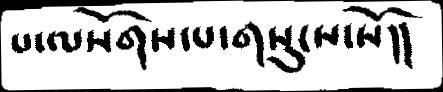པ་ལསོགས་པ་གསུངས་སོ།།
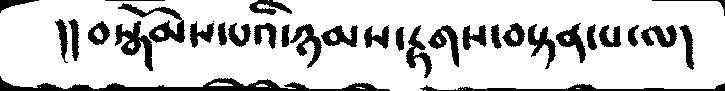།།བསྒོམས་པའི་ཉམས་རྟགས་བསྟན་པ་ལ།
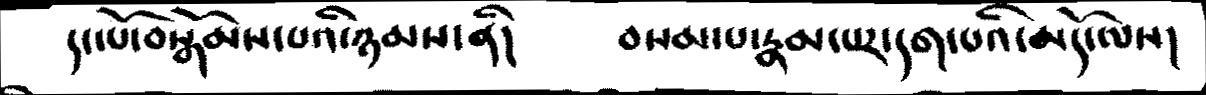དང་པོ་བསྒོམས་པའི་ཉམས་ནི།   བསམ་པ་རྣམ་པར་དག་པའི་མདོ་ལས།
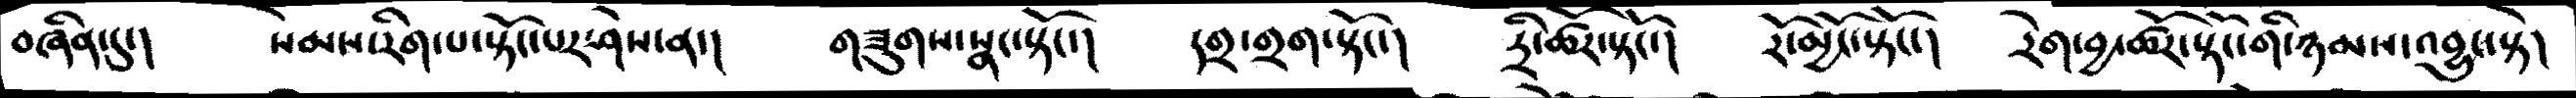བཞིན་དུ་།   སེམས་རིག་པ་སྟོང་པར་ཤེས་ན་།  གཟུགས་སྣང་སྟོང་།  དགྲ་གྲག་སྟོང་།  དྲི་ཚོར་སྟོང་།  རོ་མྱོང་སྟོང་།  རེག་བྱ་ཚོར་སྟོང་གི་ཉམས་འབྱུང་སྟེ།
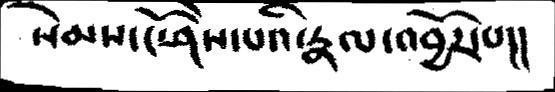སེམས་ངོ་ཤེས་པའི་རྣལ་འབྱོར་པ།།
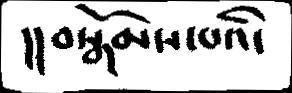།།བསྒོམས་པའི་
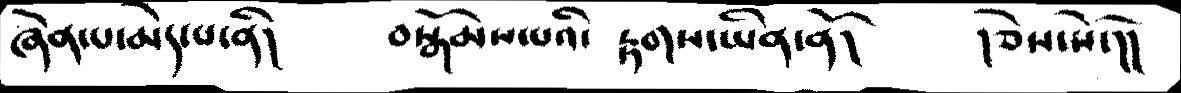ཞེན་པ་མེད་པ་ནི།   བསྒོམ་པའི་  རྟགས་ཡིན་ནོ།  །ཅེས་སོ་།།
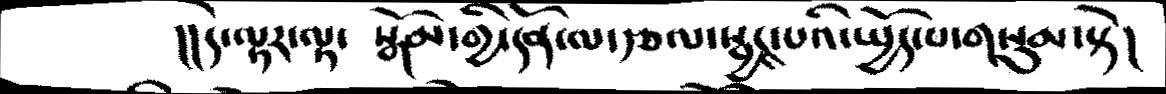།།དེ་ལྟར་ལྟ་  སྒོམ་གྱི་དོན་ལ་རྩལ་སྦྱང་པའི་སྤྱོད་པ་གསུམ་སྟེ།
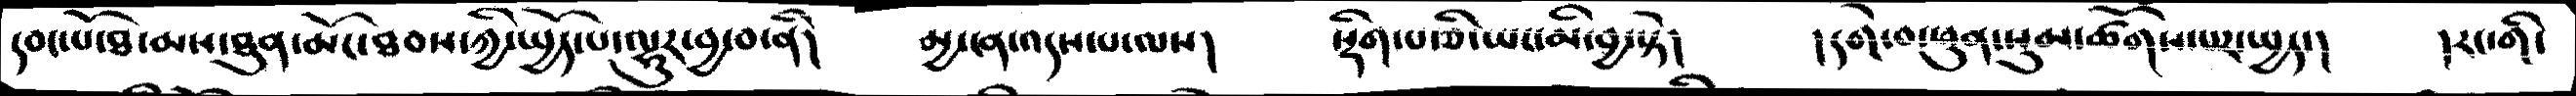དབང་པོ་ཐ་མས་ཐུན་མོང་ཐབས་ཀྱི་སྤྱོད་པ་ལྷུར་བྱ་བ་ནི།  མྱ་ངན་འདས་པ་ལས།  སྡིག་པ་ཅི་ཡང་མི་བྱ་སྟེ།  །དགེ་བ་ཕུན་སུམ་ཚོགས་པར་སྤྱད་།  །རང་གི་
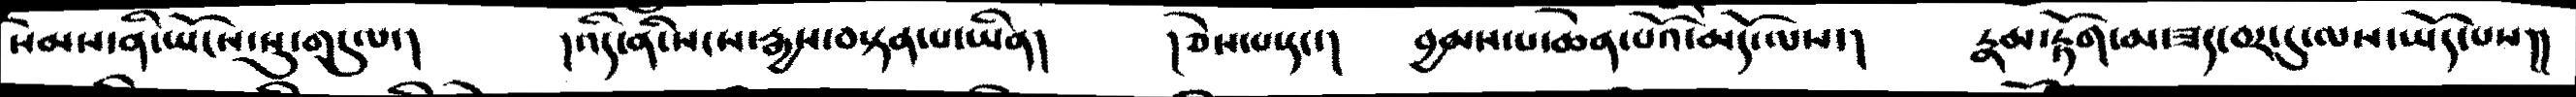སེམས་ནི་ཡོངས་སུ་གདུལ་།  །འདི་ནི་སངས་རྒྱས་བསྟན་པ་ཡིན།  །ཅེས་པ་དང་།  བྱམས་པ་ཆེན་པོའོ་མདོ་ལས་།  རྣམ་རྟོག་མ་ཟད་བར་དུ་ལས་ཡོད་པས།།
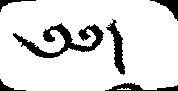༄༅།
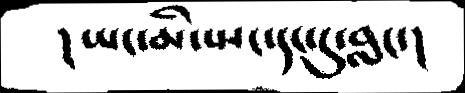།ཡང་མི་སྤང་དང་དུ་བླང་།
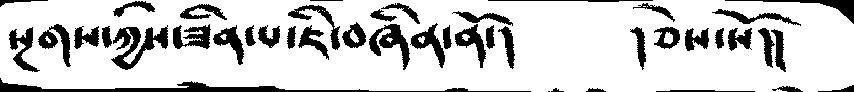སྔགས་ཀྱིས་ཟིན་པ་ཇི་བཞིན་ནོ་།  །ཅེས་སོ།།
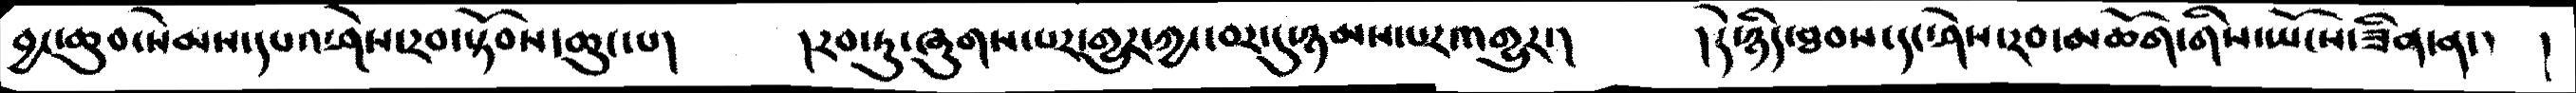བྱང་ཆུབ་སེམས་དཔའ་ཤེས་རབ་སྟོབས་ཆུང་པ།      །རབ་ཏུ་ཞུགས་པར་གྱུར་ཀྱང་བར་དུ་ཉམས་པར་འགྱུར་།    །དེ་ཉིད་ཐབས་དང་ཤེས་རབ་མཆོག་གིས་སྤོངས་ཟིན་ན་་ །
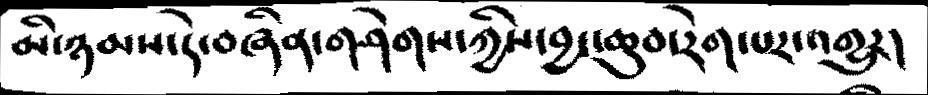མི་ཉམས་དེ་བཞིན་གཤེགས་ཀྱིས་བྱང་ཆུབ་རེག་པར་འགྱུར།
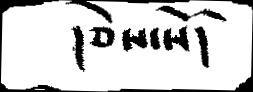།ཅེས་སོ།
